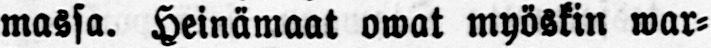massa. Heinämaat owat myöskin war-
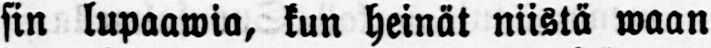sin lupaawia, kun heinät niistä waan
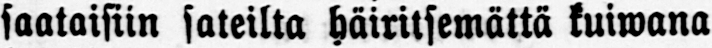saataisiin sateilta häiritsemättä kuiwana
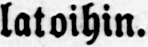latoihin.
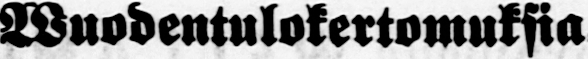Wuodentulokertomuksia
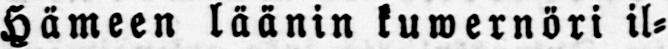Hämeen läänin kuwernöri il-
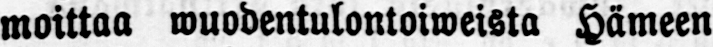moittaa wuodentulontoiweista Hämeen
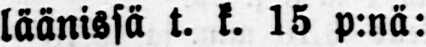läänissä t. k. 15 p:nä:
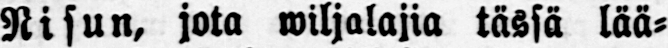Nisun, jota wiljalajia tässä lää-
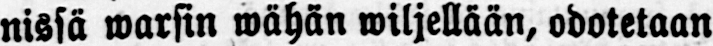nissä warsin wähän wiljellään, odotetaan
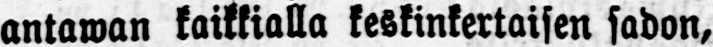antawan kaikkialla keskinkertaisen sadon,
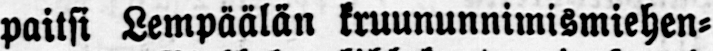paitsi Lempäälän kruununnimismiehen-
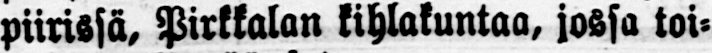piirissä, Pirkkalan kihlakuntaa, jossa toi-
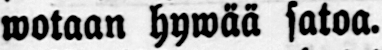wotaan hywää satoa.
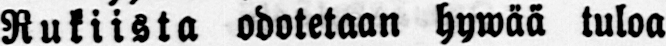Rukiista odotetaan hywää tuloa
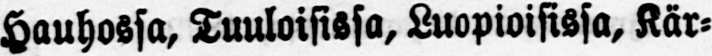Hauhossa, Luuloisissa, Luopioisissa, Kär-
